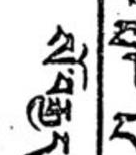སོ་བརྒྱད་
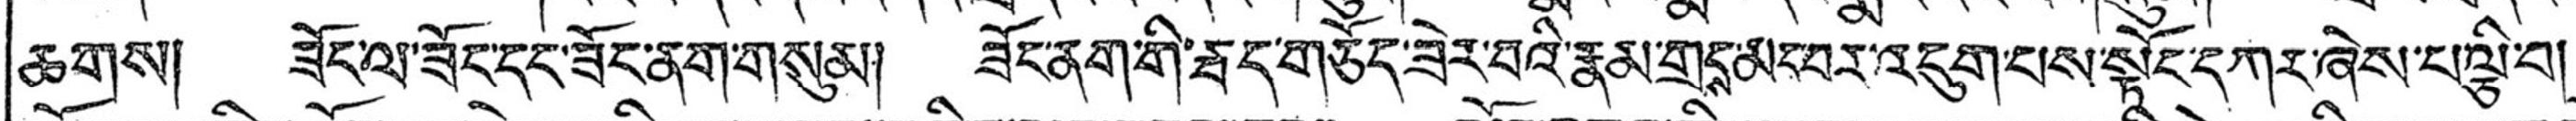ཆགས། ཟོང་ལ་ཟོང་དང་ཟོང་ནག་གསུམ། ཟོང་ནག་གི་རྦད་གཅོད་ཟེར་བའི་རྣམ་གྲངས་མང་བར་འདུག་པས་སྟོང་དཀར་ཞེས་པ་ལྕི་བ།
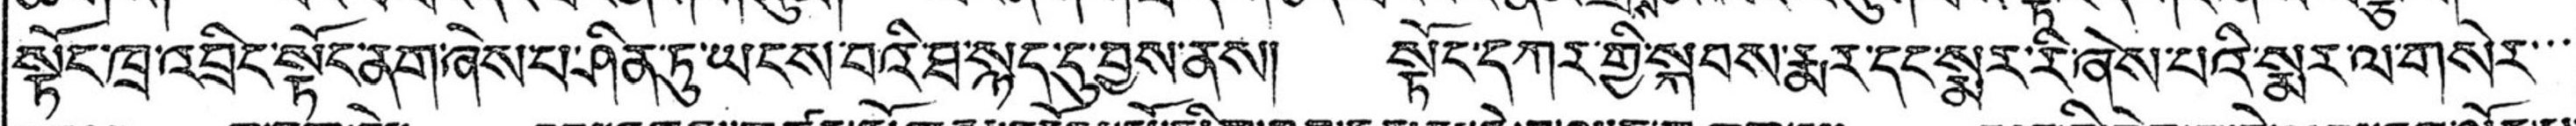སྟོང་ཁྲ་འབྲིང་སྟོང་ནག་ཞེས་པ་ཤིན་ཏུ་ཡོངས་བའི་ཐ་སྙད་དུ་བྱས་ནས། སྟོང་དཀར་གྱི་སྐབས་རྨར་དང་སྨར་རི་ཞེས་པའི་སྨར་ལ་གསེར་་་
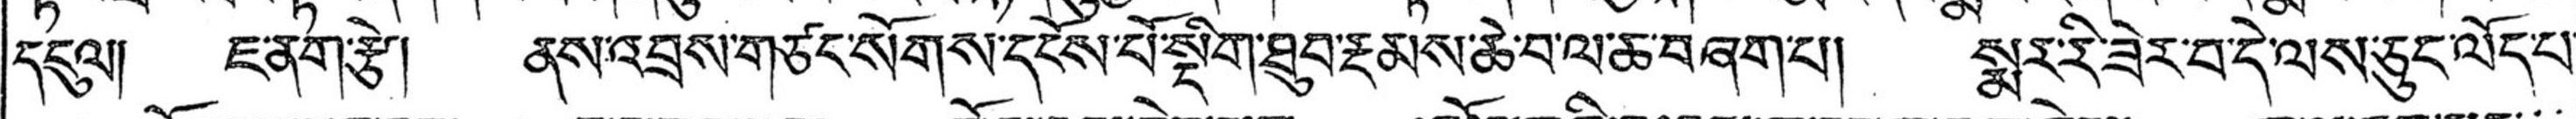དངུལ། ཇ་ནག་རྩེ། ནས་འབྲས་གཙང་སོགས་དངོས་པོ་སྡིག་ཐུབ་རྔམས་ཆེ་བ་ལ་ཆ་བཞག་པ། སྨར་རི་ཟེར་བ་དེ་ལས་ཅུང་ལོད་པ་
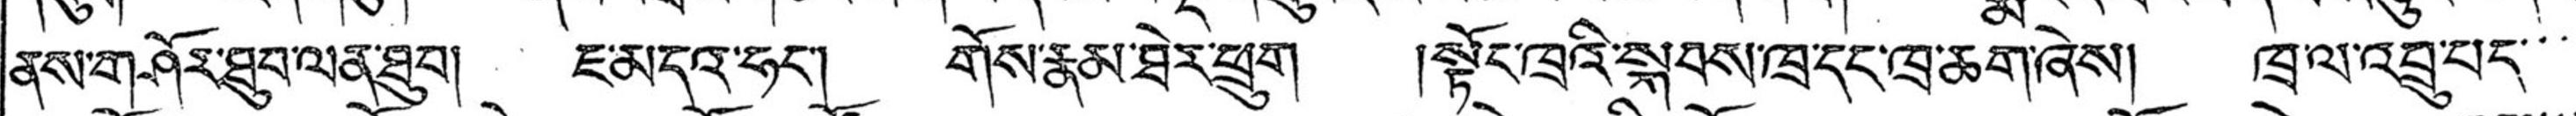ནས་གཤོར་ཐུབ་ལན་ཐུབ། ཇ་མདའ་ཧང་། གོས་རྣམ་ཐེར་ཕྲུག །སྟོང་ཁྲའི་སྐབས་ཁྲ་དང་ཁྲ་ཆག་ཞེས། ཁྲ་ལ་འབྲུ་པད་་་
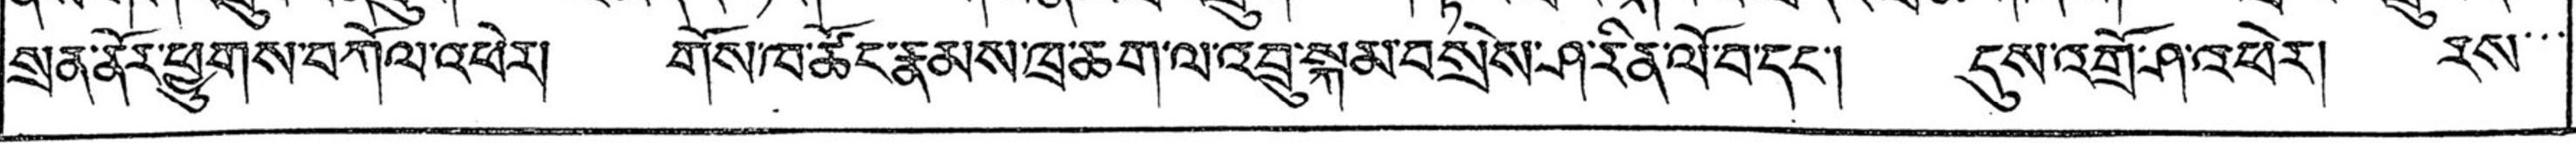སྲན་ནོར་ཕྱུགས་བཀོལ་འཕེར། གོས་ཁ་ཚོང་རྣམས་ཁྲ་ཆག་ལ་འབྲུ་སྐམ་བསྲེས་ཤ་རིན་ལོ་བ་དང་། དུས་འགྲོ་ཤ་འཕེར། རས་་་
